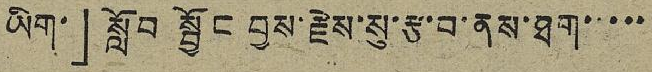ཡིག་」སློབ་སྦྱོང བྱས་རྗེས་སུ་རྩ་བ་ནས་ཐག་་་་་
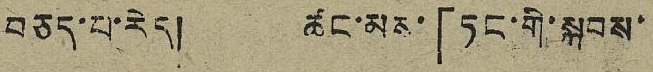བཅད་པ་རེད། ཚང་མས་「ཏང་གི་སྐབས་
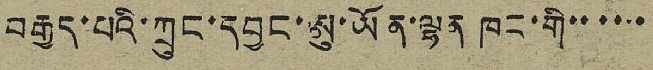བརྒྱད་པའི་ཀྲུང་དབྱང་ཨུ་ཡོན་ལྷན་ཁང་གི་་་་་་
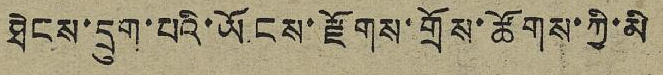ཐེངས་དྲུག་པའི་ཡོངས་རྫོགས་གྲོས་ཚོགས་ཀྱི་མི
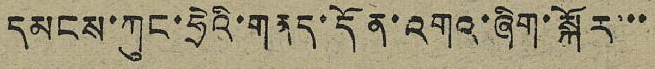དམངས་ཀུང་ཧྲེའི་གནད་དོན་འགའ་ཞིག་སྐོར་་་
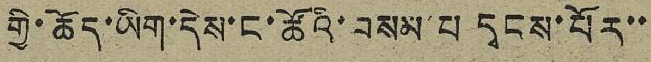གྱི་ཆོད་ཡིག་དེས་ང་ཚོའི་བསམ་པ དྭངས་པོར་་
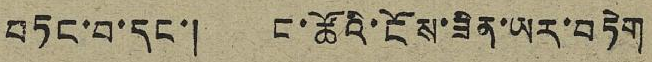བཏང་བ་དང་། ང་ཚོའི་ངོས་ཟིན་ཡར་བཏེག
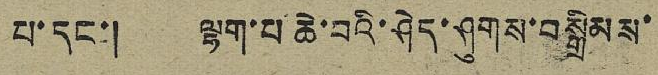པ་དང་། ལྷག་པ་ཆེ་བའི་ཤེད་ཤུགས་བསྒྲིམས་
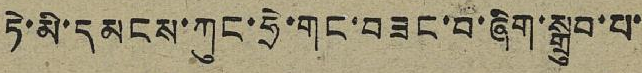ཏེ་མི་དམངས་ཀུང་ཧྲེ་གང་བཟང་བ་ཞིག་སྒྲུབ་པ་
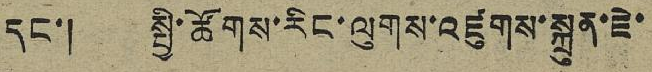དང་། སྤྱི་ཚོགས་རིང་ལུགས་འཛུགས་སྐྲུན་ཇེ་
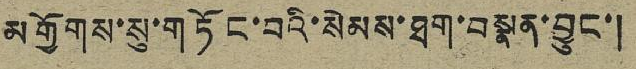མགྱོགས་སུ་གཏོང་བའི་སེམས་ཐག་བསྣན་བྱུང་།
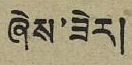ཞེས་ཟེར།
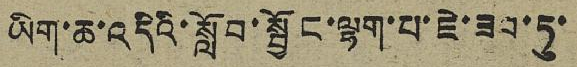ཡིག་ཆ་འདིའི་སློབ་སྦྱོང་ལྷག་པ་ཇེ་ཟབ་ཏུ་
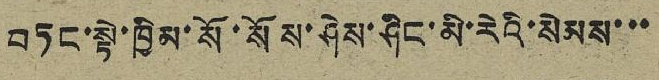བཏང་སྟེ་ཁྱིམ་སོ་སོས་ཤེས་ཤིང་མི་རེའི་སེམས་་་
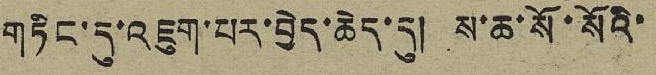གཏིང་དུ་འཇུག་པར་བྱེད་ཆེད་དུ། ས་ཆ་སོ་སོའི་
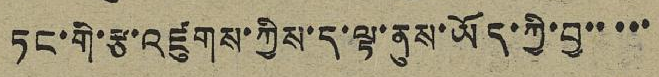ཏང་གི་རྩ་འཛུགས་ཀྱིས་ད་ལྟ་ནུས་ཡོད་ཀྱི་བྱ་་ ་་་
